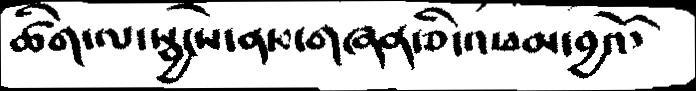ཚིག་ལ་སྦྱངས་ནས་གཞན་ཅི་འཕམ་བྱའོ་
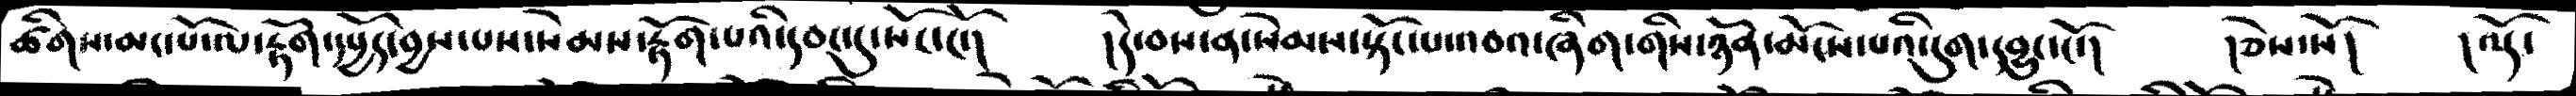ཆིགས་མང་པོ་ལ་རྟོག་དཔྱོད་བྱས་པས་སེམས་རྟོག་པའི་དབང་དུ་སོང་ངོ་།   །དེ་བས་ན་སེམས་སྟོང་པ་འབའ་ཞིག་གིས་ཉོན་མོངས་པའི་དུག་དབྱུང་ངོ་།  །ཅེས་སོ།  ། འོར
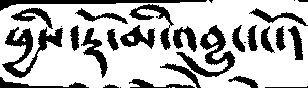ཕྱིས་རྡོ་མི་འབྱུང་ངོ་།
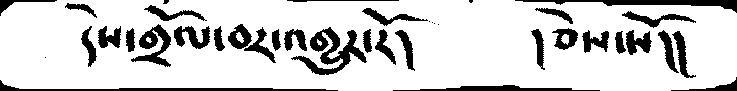དེས་གྲོལ་བར་འགྱུར་རོ།   །ཅེས་སོ།།
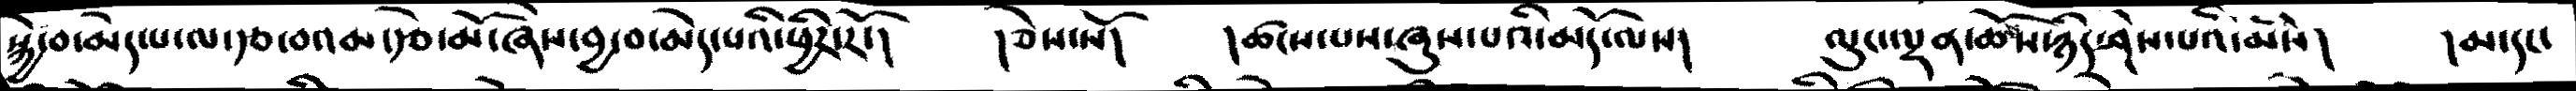སྐྱེ་བ་མེད་པ་ལ་རྩ་བའམ་རྩེ་མོ་ཞེས་བྱ་བ་མེད་པའི་ཕྱིར་རོ་།   །ཅེས་སོ།   །ཚངས་པས་ཞུས་པའི་མདོ་ལས།    ལུང་ལྡན་ཆོས་ཉིད་ཤེས་པའི་མོས།   །མ་དང་
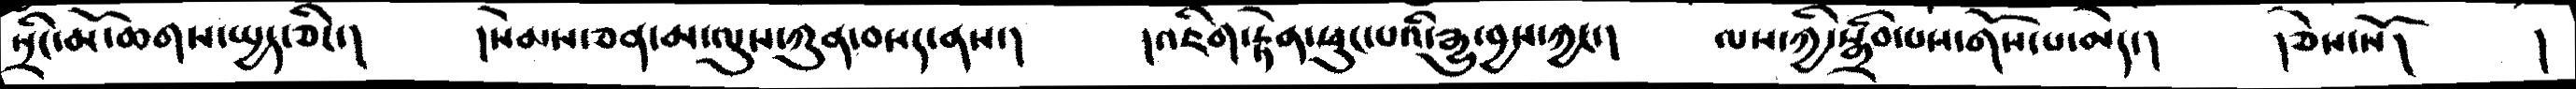སྲིང་མོ་ཆགས་སྤྱད་ཅིང་།     །སེམས་ཅན་མ་ལུས་ཀུན་བསད་ནས་།   །འཇིག་རྟེན་ཕུང་པའི་རྒྱུ་བྱས་ཀྱང་།   ལས་ཀྱི་སྒྲིབ་པས་གོས་པ་མེད་།    །ཅེས་སོ།     །
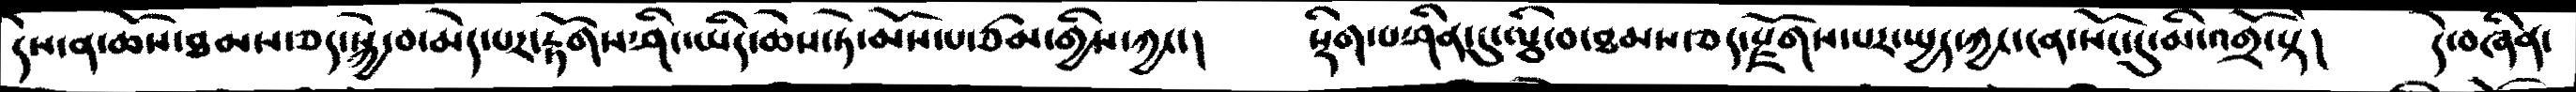དེས་ན་ཆོས་ཐམས་ཅད་སྐྱེ་བ་མེད་པར་རྟོགས་ཤིང་ཡིད་ཆེས་ཏེ་མོས་པ་ཙམ་གྱིས་ཀྱང་།   སྡིག་པ་ཤིན་དུ་ལྕི་བ་ཐམས་ཅད་རྫོགས་པར་སྤྱད་ཀྱང་ངན་སོང་དུ་མི་འགྲོ་སྟེ།   དེ་བཞིན་
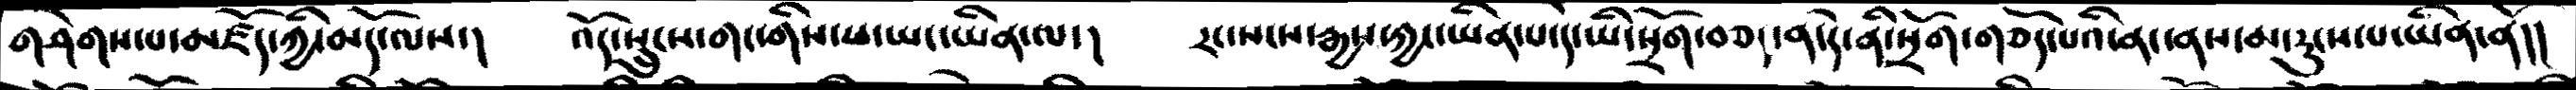གཤེགས་པ་མཛོད་ཀྱི་མདོ་ལས་།   འོད་སྲུངས་གང་གིས་ཕ་ཡང་ཡིན་ལ་།    རང་སངས་རྒྱས་ཀྱང་ཡིན་པ་དེ་ཡི་སྲོག་བཅད་ན་དེ་ནི་སྲོག་གཅོད་པའི་ནང་ནས་མ་རུངས་པ་ཡིན་ནོ།།
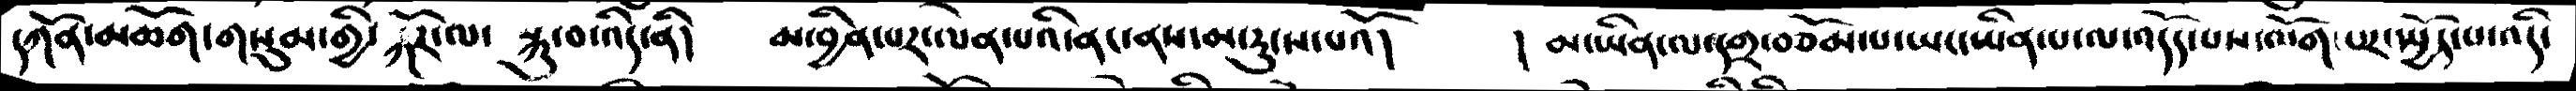དཀོན་མཆོག་གསུམ་གྱི་སྐོར་ལ་ སྐུ་བ་འདི་ནི།   མ་བྱིན་པར་ལེན་པའི་ནང་ནས་མ་རུངས་པའོ།     །མ་ཡིན་ལ་དགྲ་བཅོམས་པ་ལ་འདོད་པས་ལོག་སྤྱོད་པ་འདི་
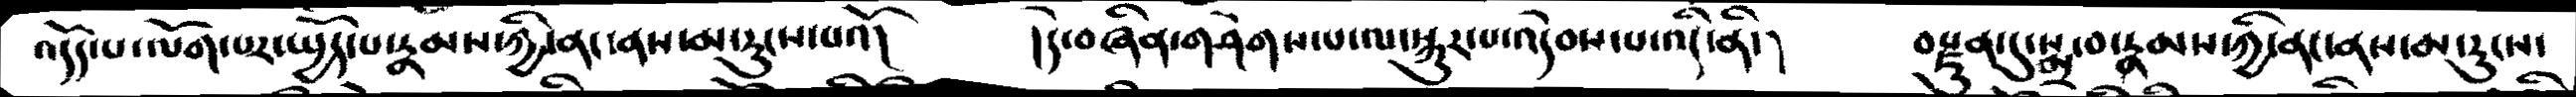འདོད་པ་ལོག་པར་སྤྱོད་པ་རྣམས་ཀྱི་ནང་ནས་མ་རུངས་པའོ།    །དེ་བཞིན་གཤེགས་པ་ལ་སྐུར་པ་འདེབས་པ་འདི་ནི་།   བརྫུན་དུ་སྨྲ་བ་རྣམས་ཀྱི་ནང་ནས་མ་རུངས་
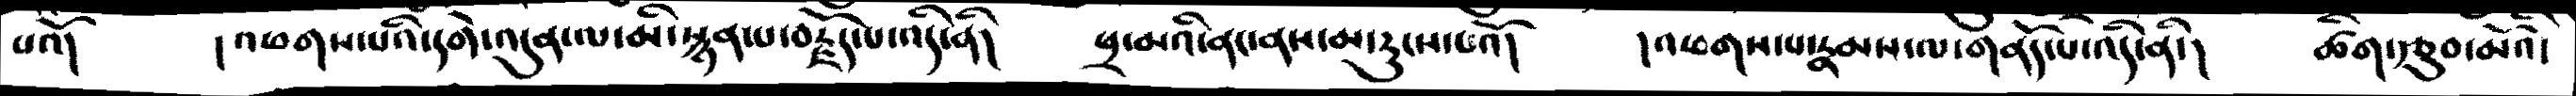པའོ།   །འཕགས་པའི་དགེ་འདུན་ལ་མི་སྙན་པ་བརྗོད་པ་འདི་ནི།   ཕྲ་མའི་ནང་ནས་མ་རུངས་པའོ།   །འཕགས་པ་རྣམས་ལ་གནོད་པ་འདི་ནི་།   ཚིག་རྩུབ་མོའི།
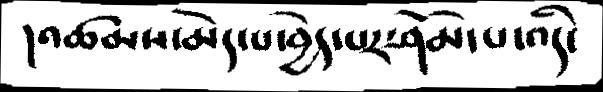།འཚམས་མེད་པ་བྱེད་པར་ཤོམ་པ་འདི་
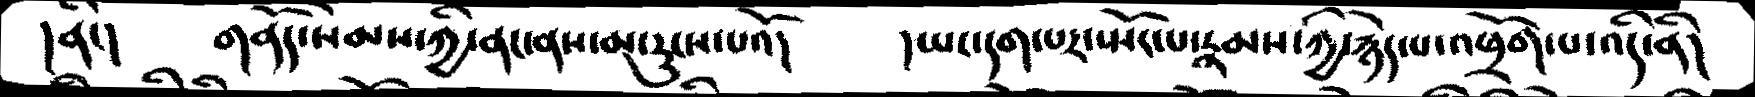།ནིང་།  གནོད་སེམས་ཀྱི་ནང་ནས་མ་རུངས་པའོ།   །ཡང་དག་པར་སྤོང་པ་རྣམས་ཀྱི་རྙེད་པ་འཕྲོག་པ་འདི་ནི།
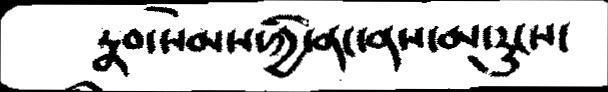རྣབ་སེམས་ཀྱི་ནང་ནས་མ་རུངས་
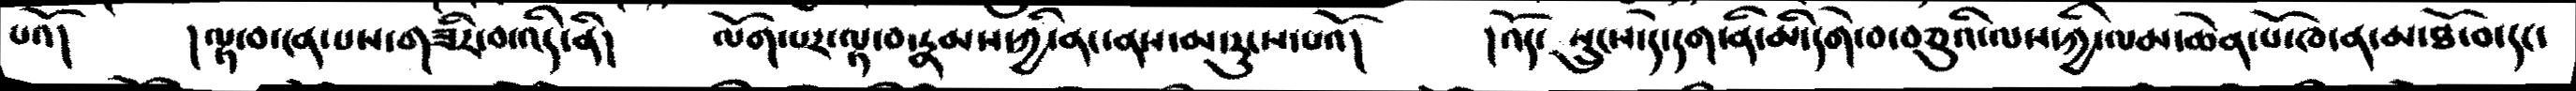པའོ།   ད་ལྟ་བ་ངན་པས་གཟིར་བ་འདི་ནི།   ལོག་པར་ལྟ་བ་རྣམས་ཀྱི་ནང་ནས་མ་རུངས་པའོ།   །འོད་སྲུངས་དེ་དག་ནི་མི་དགེ་བ་བཅུའི་ལས་ཀྱི་ལམ་ཆེན་པོ་ཁ་ན་མ་ཐོ་བ་དང་
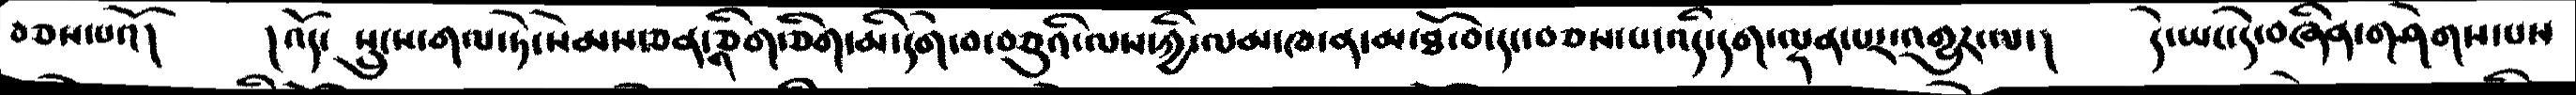བཅས་པའོ།   །འོད་སྲུངས་གལ་ཏེ་སེམས་ཅན་ཅིག་ཅིག་མ་དགེ་བ་བཅུའི་ལས་ཀྱི་ལམ་ཁ་ན་མ་ཐོ་བ་དང་བཅས་པ་འདི་དག་ལྡན་པར་འགྱུར་ལ་།  དེ་ཡང་དེ་བཞིན་གཤེགས་པས
